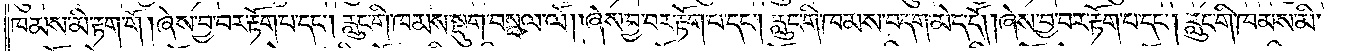ཁམས་མི་རྟག་གོ། ཞེས་བྱ་བར་རྟོག་པ་དང༌། རླུང་གི་ཁམས་སྡུག་བསྔལ་ལོ། །ཞེས་བྱ་བར་རྟོག་པ་དང༌། རླུང་གི་ཁམས་བདག་མེད་དོ། །ཞེས་བྱ་བར་རྟོག་པ་དང༌། རླུང་གི་ཁམས་མི་
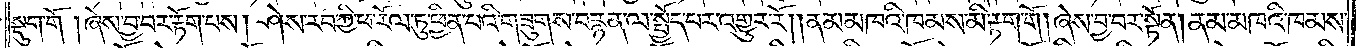སྡུག་གོ། ཞེས་བྱ་བར་རྟོག་པས། ཤེས་རབ་ཀྱི་ཕ་རོལ་ཏུ་ཕྱིན་པའི་གཟུགས་བརྙན་ལ་སྤྱོད་པར་འགྱུར་རོ། །ནམ་མཁའི་ཁམས་མི་རྟག་གོ། ཞེས་བྱ་བར་སྟོན། ནམ་མཁའི་ཁམས་
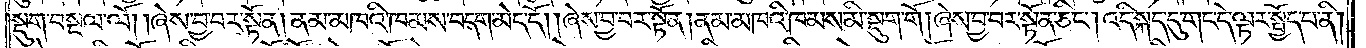སྡུག་བསྔལ་ལོ། །ཞེས་བྱ་བར་སྟོན། ནམ་མཁའི་ཁམས་བདག་མེད་དོ། །ཞེས་བྱ་བར་སྟོན། ནམ་མཁའི་ཁམས་མི་སྡུག་གོ། ཞེས་བྱ་བར་སྟོན་ཅིང༌། འདི་སྐད་དུ་གང་དེ་ལྟར་སྤྱོད་པ་ནི།
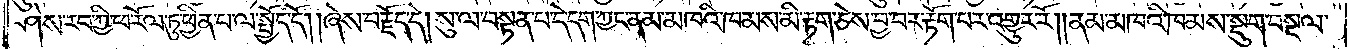ཤེས་རབ་ཀྱི་ཕ་རོལ་ཏུ་ཕྱིན་པ་ལ་སྤྱོད་དོ། །ཞེས་བརྗོད་དེ། སུ་ལ་བསྟན་པ་དེ་དག་ཀྱང་ནམ་མཁའི་ཁམས་མི་རྟག་ཅེས་བྱ་བར་རྟོག་པར་འགྱུར་རོ། །ནམ་མཁའི་ཁམས་སྡུག་བསྔལ་
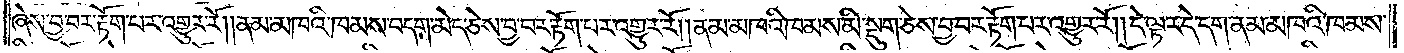ཞེས་བྱ་བར་རྟོག་པར་འགྱུར་རོ། །ནམ་མཁའི་ཁམས་བདག་མེད་ཅེས་བྱ་བར་རྟོག་པར་འགྱུར་རོ། །ནམ་མཁའི་ཁམས་མི་སྡུག་ཅེས་བྱ་བར་རྟོག་པར་འགྱུར་རོ། །དེ་ལྟར་དེ་དག་ནམ་མཁའི་ཁམས་
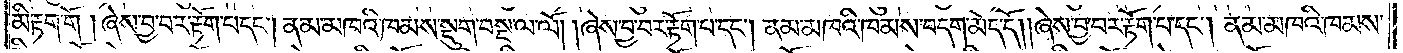མི་རྟག་གོ། ཞེས་བྱ་བར་རྟོག་པ་དང༌། ནམ་མཁའི་ཁམས་སྡུག་བསྔལ་ལོ། །ཞེས་བྱ་བར་རྟོག་པ་དང༌། ནམ་མཁའི་ཁམས་བདག་མེད་དོ། །ཞེས་བྱ་བར་རྟོག་པ་དང༌། ནམ་མཁའི་ཁམས་
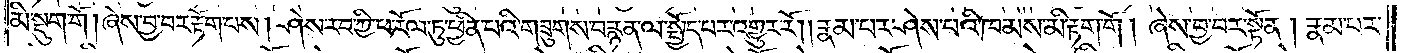མི་སྡུག་གོ། ཞེས་བྱ་བར་རྟོག་པས། ཤེས་རབ་ཀྱི་ཕ་རོལ་ཏུ་ཕྱིན་པའི་གཟུགས་བརྙན་ལ་སྤྱོད་པར་འགྱུར་རོ། །རྣམ་པར་ཤེས་པའི་ཁམས་མི་རྟག་གོ། ཞེས་བྱ་བར་སྟོན། རྣམ་པར་
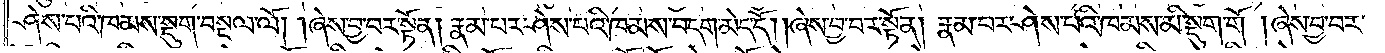ཤེས་པའི་ཁམས་སྡུག་བསྔལ་ལོ། །ཞེས་བྱ་བར་སྟོན། རྣམ་པར་ཤེས་པའི་ཁམས་བདག་མེད་དོ། །ཞེས་བྱ་བར་སྟོན། རྣམ་པར་ཤེས་པའི་ཁམས་མི་སྡུག་གོ། ཞེས་བྱ་བར་
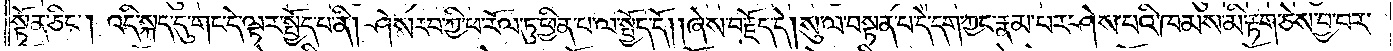སྟོན་ཅིང༌། འདི་སྐད་དུ་གང་དེ་ལྟར་སྤྱོད་པ་ནི། ཤེས་རབ་ཀྱི་ཕ་རོལ་ཏུ་ཕྱིན་པ་ལ་སྤྱོད་དོ། །ཞེས་བརྗོད་དེ། སུ་ལ་བསྟན་པ་དེ་དག་ཀྱང་རྣམ་པར་ཤེས་པའི་ཁམས་མི་རྟག་ཅེས་བྱ་བར་
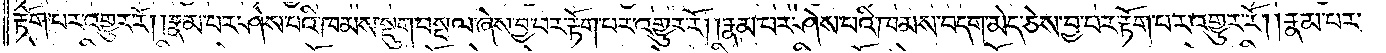རྟོག་པར་འགྱུར་རོ། །རྣམ་པར་ཤེས་པའི་ཁམས་སྡུག་བསྔལ་ཞེས་བྱ་བར་རྟོག་པར་འགྱུར་རོ། །རྣམ་པར་ཤེས་པའི་ཁམས་བདག་མེད་ཅེས་བྱ་བར་རྟོག་པར་འགྱུར་རོ། །རྣམ་པར་
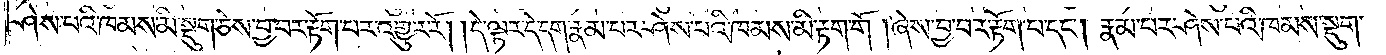ཤེས་པའི་ཁམས་མི་སྡུག་ཅེས་བྱ་བར་རྟོག་པར་འགྱུར་རོ། །དེ་ལྟར་དེ་དག་རྣམ་པར་ཤེས་པའི་ཁམས་མི་རྟག་གོ། ཞེས་བྱ་བར་རྟོག་པ་དང༌། རྣམ་པར་ཤེས་པའི་ཁམས་སྡུག་
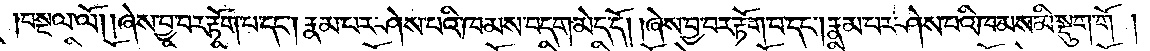བསྔལ་ལོ། །ཞེས་བྱ་བར་རྟོག་པ་དང༌། རྣམ་པར་ཤེས་པའི་ཁམས་བདག་མེད་དོ། །ཞེས་བྱ་བར་རྟོག་པ་དང༌། རྣམ་པར་ཤེས་པའི་ཁམས་མི་སྡུག་གོ།
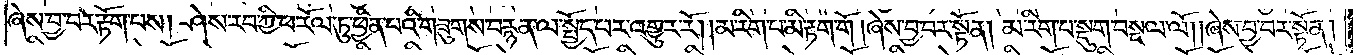ཞེས་བྱ་བར་རྟོག་པས། ཤེས་རབ་ཀྱི་ཕ་རོལ་ཏུ་ཕྱིན་པའི་གཟུགས་བརྙན་ལ་སྤྱོད་པར་འགྱུར་རོ། །མ་རིག་པ་མི་རྟག་གོ། ཞེས་བྱ་བར་སྟོན། མ་རིག་པ་སྡུག་བསྔལ་ལོ། །ཞེས་བྱ་བར་སྟོན།
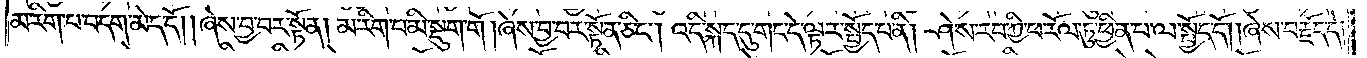མ་རིག་པ་བདག་མེད་དོ། །ཞེས་བྱ་བར་སྟོན། མ་རིག་པ་མི་སྡུག་གོ། ཞེས་བྱ་བར་སྟོན་ཅིང༌། འདི་སྐད་དུ་གང་དེ་ལྟར་སྤྱོད་པ་ནི། ཤེས་རབ་ཀྱི་ཕ་རོལ་ཏུ་ཕྱིན་པ་ལ་སྤྱོད་དོ། །ཞེས་བརྗོད་དེ།
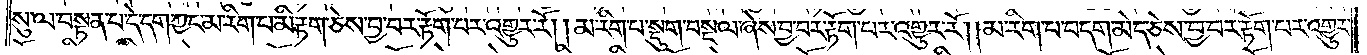སུ་ལ་བསྟན་པ་དེ་དག་ཀྱང་མ་རིག་པ་མི་རྟག་ཅེས་བྱ་བར་རྟོག་པར་འགྱུར་རོ། །མ་རིག་པ་སྡུག་བསྔལ་ཞེས་བྱ་བར་རྟོག་པར་འགྱུར་རོ། །མ་རིག་པ་བདག་མེད་ཅེས་བྱ་བར་རྟོག་པར་འགྱུར་
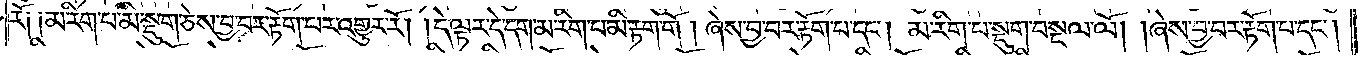རོ༑ ༑མ་རིག་པ་མི་སྡུག་ཅེས་བྱ་བར་རྟོག་པར་འགྱུར་རོ། །དེ་ལྟར་དེ་དག་མ་རིག་པ་མི་རྟག་གོ། ཞེས་བྱ་བར་རྟོག་པ་དང༌། མ་རིག་པ་སྡུག་བསྔལ་ལོ། །ཞེས་བྱ་བར་རྟོག་པ་དང༌།
